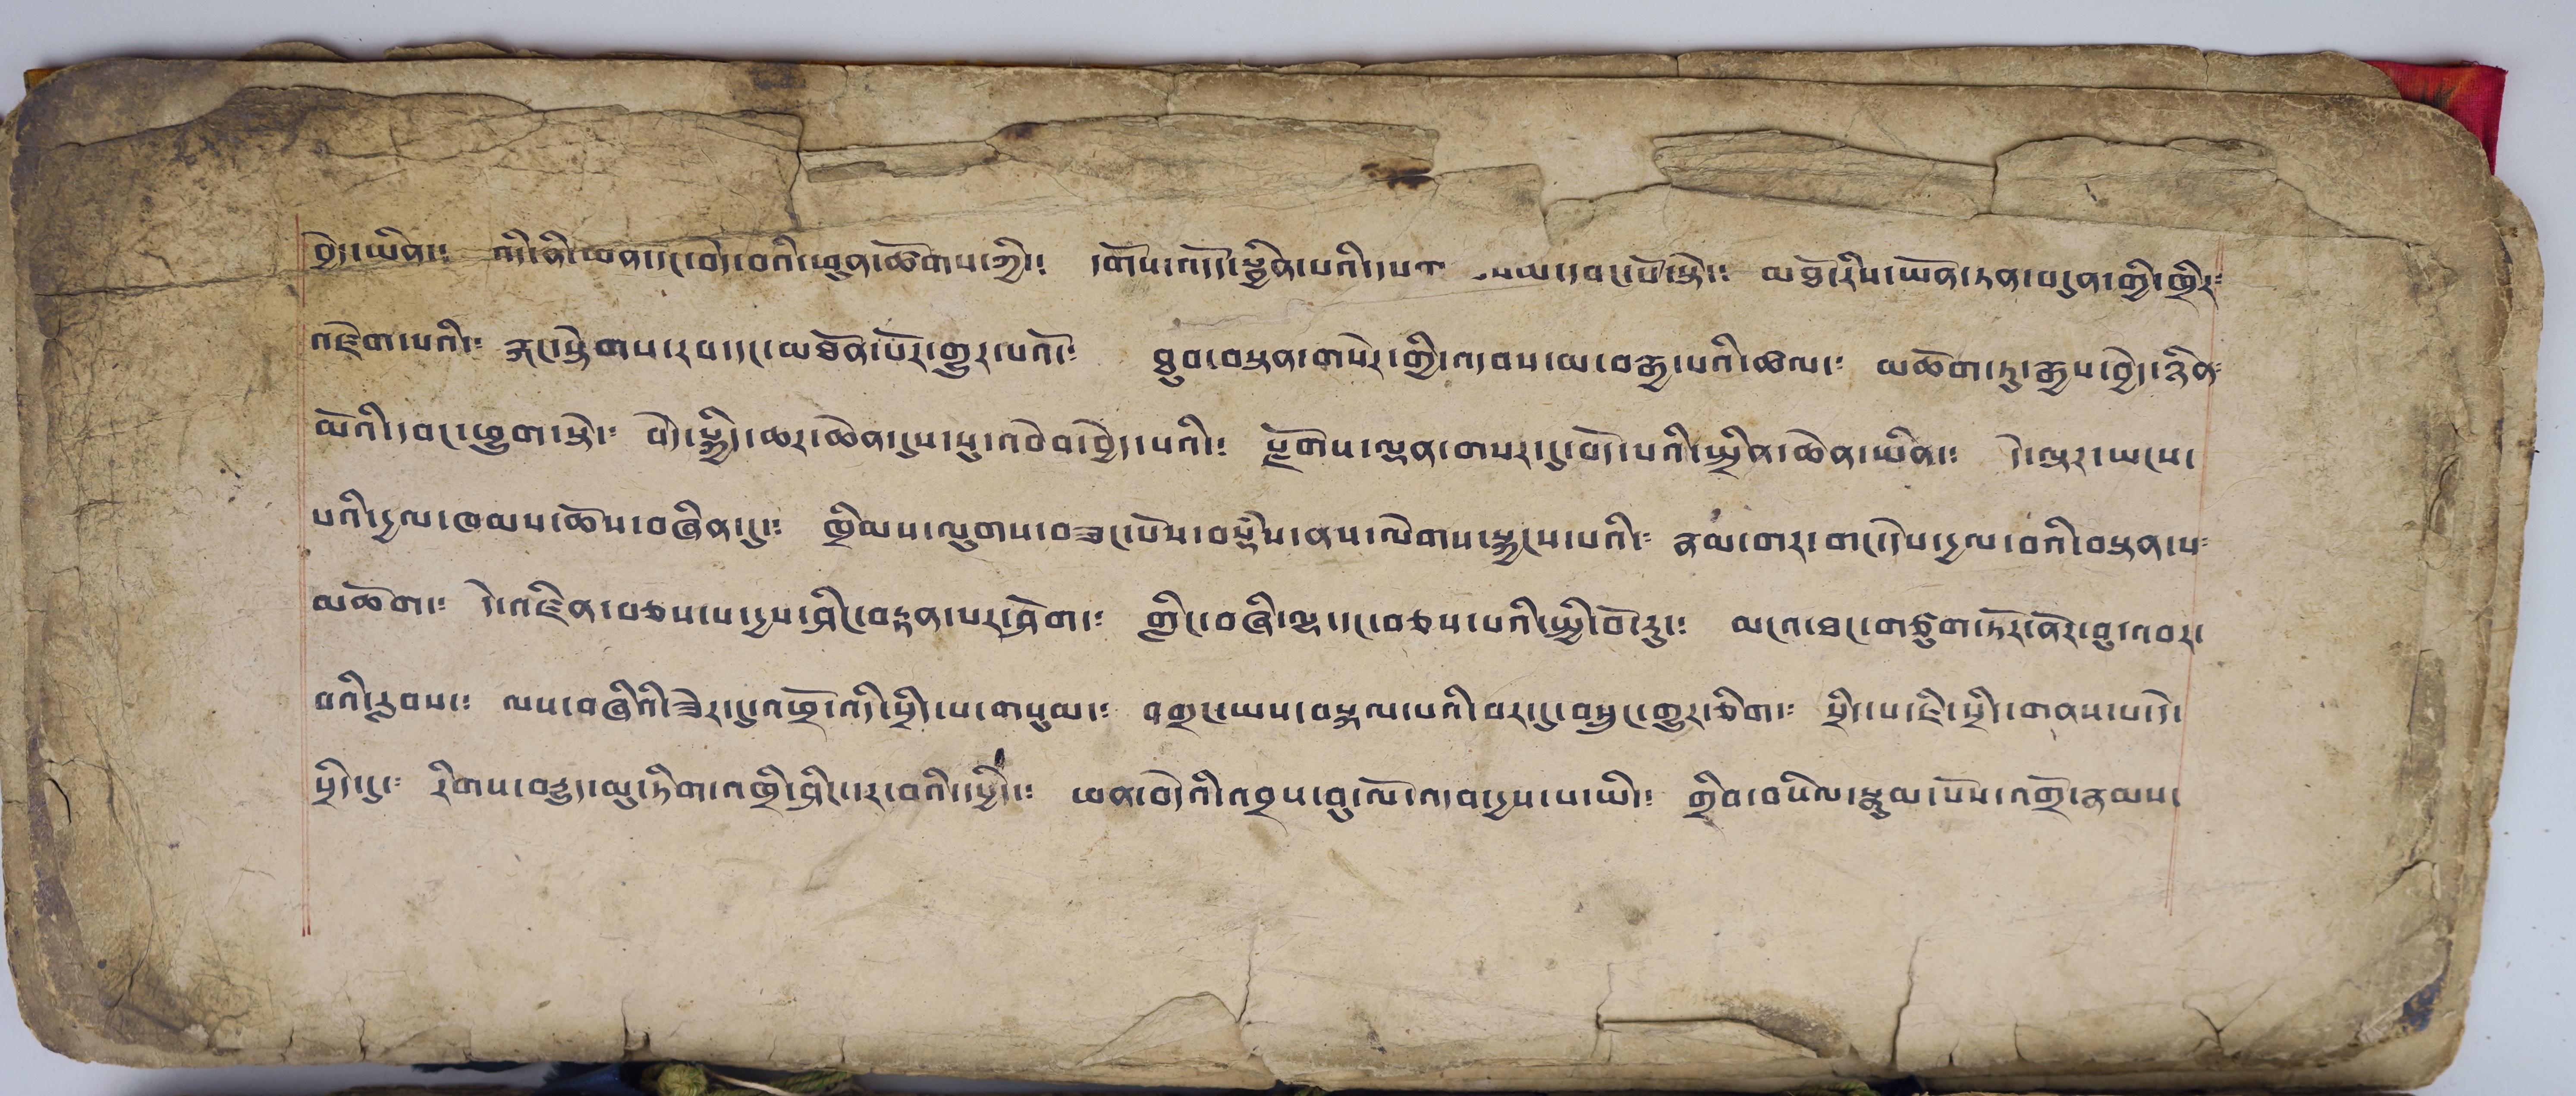བྱེད་ཡིན་༴ འདི་ནི་ཕན་དང་བདེ་བའི་ཕུན་ཚོགས་ཀྱི་༴ དགོས་འདོད་སྦྱིན་པའི་དཔག་བསམ་དབང་པོ་སྟེ་༴ མཐོ་རིས་ཡོན་ཏན་བདུན་གྱི་ཁྲིར༴
འཛེག་པའི་༴ རྐང་སྟེགས་རབ་དང་མཐོན་པོར་གྱུར་པའོ་༴ ཐུབ་བསྟན་གསེར་གྱི་འདབས་མ་བརྒྱ་པའི་ཚལ་༴ མཆོག་ཏུ་རྒྱས་བྱེད་ཉིན༴
མོའི་དབང་ཕྱུག་སྟེ་༴ བདེ་སྐྱིད་ཆར་ཆེན་དུས་སུ་འབེབ་བྱེད་པའི་༴ རྫོགས་ལྡན་གསར་དུ་བོད་པའི་སྤྱིན་ཆེན་ཡིན་༴ དེ་ལྟར་ཡངས་
པའི་དྱལ་ཁམས་ཆོས་བཞིན་དུ་༴ ཁྲིམས་ལུགས་བཟང་པོས་བསྡཾས་ནས་ལེགས་སྐྱངས་པའི་༴ རྣམ་གར་གང་དེས་དྱལ་བའི་བསྟན་པ༴
མཆོག་༴ དེ་འཛིན་བཅས་པ་དྱས་ཤིང་བརྟན་པར་ཤོག་༴ གླིང་བཞི་ལྷ་དང་བཅས་པའི་སྤྱི་བོ་རུ་༴ མངའ་ཐང་གཙུག་ཏོར་ནོར་བུ་འབར་
བའི་རླབས་༴ ལས་བཞིའི་ཟེར་དུ་འཕྲོ་འདི་སྲིད་པ་གསུམ་༴ བགྲང་ཡས་བསྐལ་པའི་བར་དུ་བསྲུང་གྱུར་ཅིག་༴ སྲིད་པ་ཇི་སྲིད་གནས་པ་དེ་
སྲིད་དུ་༴ རིགས་བརྒྱུད་མུ་ཏིག་འཁྲི་ཤིང་ར་བའི་དཔྱིད་༴ ཕན་བདེའི་འབྲས་བུ་ལོ་འདབ་དྱས་པ་ཡི་༴ གྲིབ་བསིལ་སྣུམ་པོས་འགྲོ་རྣམས་
